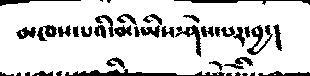མཁས་པའི་མི་ཡིས་ཤེས་པར་བྱ་།
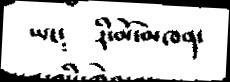ཡང༴  རི་མོ་མཁན་
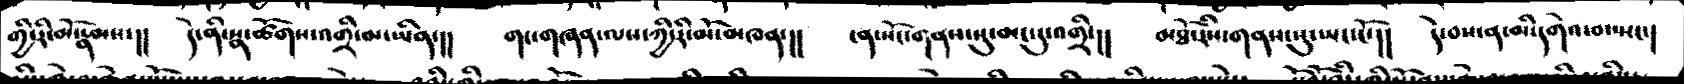གྱི་རི་མོ་རྣམས་།།  དེ་ནི་སྣ་ཚོགས་འགྲི་མ་ཡིན་།།  གང་གཞན་ལས་ཀྱི་རི་མོ་མཁན་།།  ངན་སོང་གནས་སུ་མང་དུ་འགྲི་།། མཐོ་རིས་གནས་སུ་ཡང་ངོ་།།  དེ་བས་ན་མེ་དགེའ་བ་སྤང་།
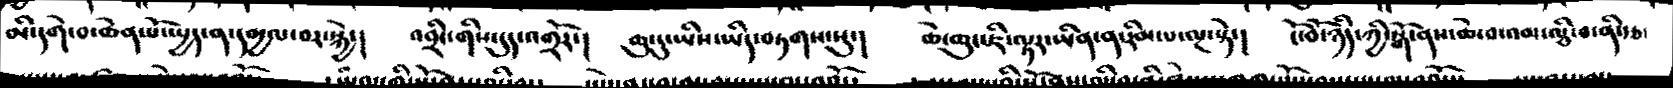མི་དགེ་བ་ཆེན་པོ་སྤྱད་ན་དམྱལ་བར་སྐྱེ་།  འབྲིང་གིས་དུད་འགྲོར་།  ཆུ་དུ་ཡིས་ཡིད་བཏགས་སུ་།  ཆེ་ཆུང་ཇི་ལྟར་ཡིན་ན་རིམ་པ་ལྔ་སྟེ་།  ངོ་བོ་ཉིད་ཀྱི་སྒོ་ནས་ཆེ་བ་འམ་ལྕི་བ་ནི་རྩ་
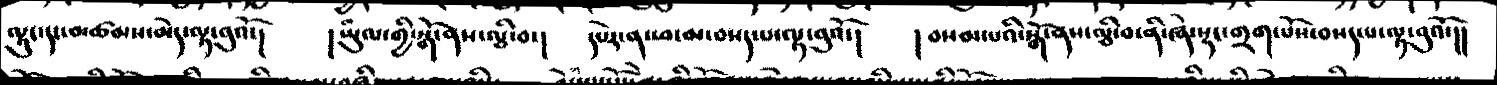ལྟ་དང་མཚམས་མེད་ལྟ་བུའོ་།    །ཡུཾལ་གྱི་སྒོ་ནས་ལྕི་བ་།  དཔེར་ན་ཕ་མ་བསད་པ་ལྟ་བུའོ་།   །བསམ་པའི་སྒོ་ནས་ལྕི་བ་ནི་ཞེ་སྡང་གྲག་པོས་བསད་པ་ལྟ་བུའོ་།།
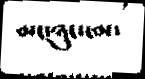མང་ཉུང་ངམ་
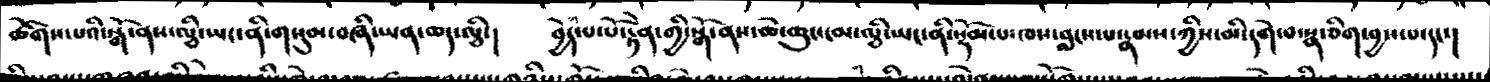ཚོགས་པའི་སྒོ་ནས་ལྕི་ཡང་ནི་གསུམ་བཞི་ཡན་ཆད་ལྕི་།  བྱེད་པ་པོ་རྟེན་གྱི་སྒོ་ནས་ཆེ་ཆུང་ངམ་ལྕི་ཡང་ནི་སྡོམ་པ་ཁས་བླངས་པ་རྣམས་ཀྱིས་མི་དགེ་བ་སྣ་ཅིག་བྱས་པ་དང་།
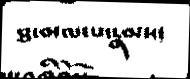ཐ་མལ་པ་རྣམས་
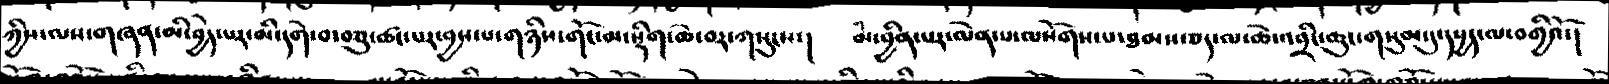ཀྱིས་ལས་གཞན་མི་བྱེད་པར་མི་དགེ་བ་བཅུ་ཚང་པར་བྱས་པ་གཉིས་གོང་མ་སྡིག་ཆེ་བར་གསུངས་།  མ་བྱི་པར་ལེན་པ་ལསོགས་པ་ཐམས་ཅད་ལ་ཆེ་འབྲིང་ཆུང་གསུམ་དུ་དཔྱད་ལ་བགྱིའོ་།
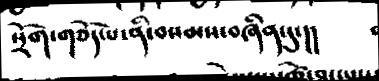སྲོག་གཅོད་པ་ནི་བསམས་བཞིན་དུ་།།
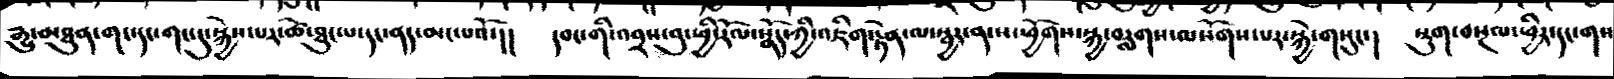རྒྱུ་མཐུན་གང་དང་གང་དུ་སྐྱེས་པར་ཚེ་ཐུང་པ་དང་ནད་མང་པའོ་།།  དབང་གི་འབྲས་བུ་ཕྱི་རོལ་སྣོད་ཀྱི་འཇིག་རྟེན་ལ་སྦྱར་ནས་ཕྱོགས་སྐྱ་བརླགས་ལསོགས་པར་སྐྱེ་གསུང་།  སྡུག་བསྔལ་ཕྱིར་དང་གས
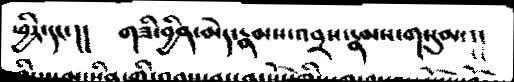ཕྱིར་དང་།།     གཟི་བྱིན་མེད་རྣམས་འབྲས་རྣམས་གསུམ་།།
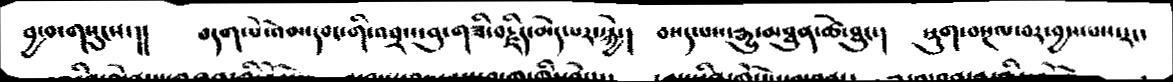བྱ་བ་གསུངས་།།  བདག་པེ་འེམ་དབང་གི་འབྲས་བུ་གཟི་བརྗིད་མེད་པར་སྐྱེ་།  བསད་པས་རྒྱུ་མཐུན་ཚེ་ཐུང་།  སྡུག་བསྔལ་བར་བྱས་པས་རང་
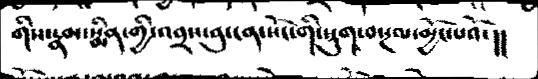གིས་རྣམ་སྨིན་གྱི་འབྲས་བུ་ན་སོང་གི་སྡུག་བསྔལ་མྱོང་པའོ་།།
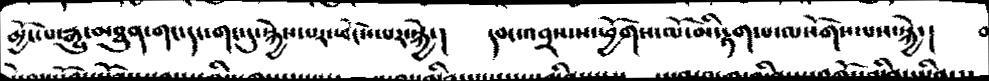མྱོང་པ་རྒྱུ་མཐུན་གང་དང་གང་དུ་སྐྱེས་པར་ཕོངས་པར་སྐྱེ་།  དབང་འབྲས་ས་ཕྱོགས་ལོ་མི་རྟག་པ་ལསོགས་པས་སྐྱེ་།
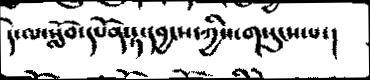དེ་ལ་སློབ་དཔོན་རྟ་དབྱངས་ཀྱིས་གསུངས་པ་།
